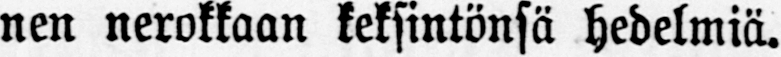nen nerokkaan keksintönsä hedelmiä.
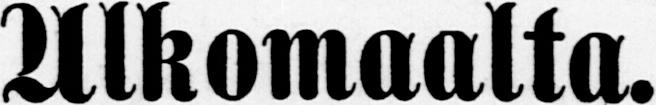Ulkomaalta.
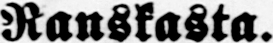Ranskasta.
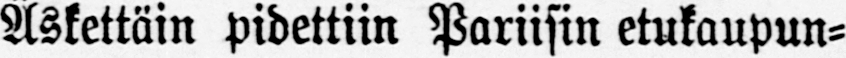Äskettäin pidettiin Pariisin etukaupun-
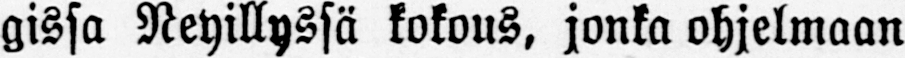gissa Neyillyssä kokous, jonka ohjelmaan
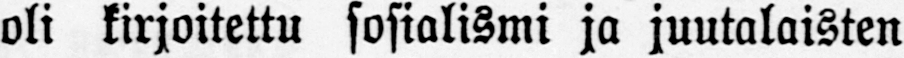oli kirjoitettu sosialismi ja juutalaisten
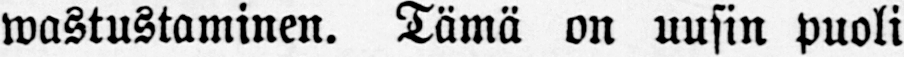wastustaminen. Tämä on uusin puoli
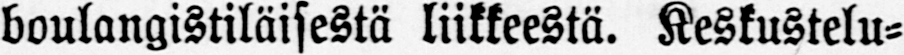boulangistiläisestä liikkeestä. Keskustelu-
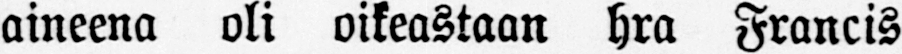aineena oli oikeastaan hra Francis
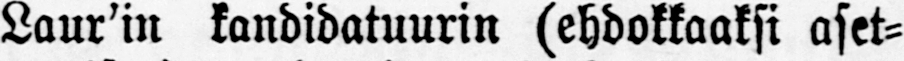Laur'in kandidatuurin (ehdokkaaksi aset-
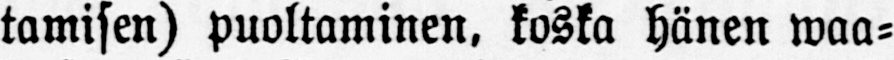tamisen) puoltaminen, koska hänen waa-
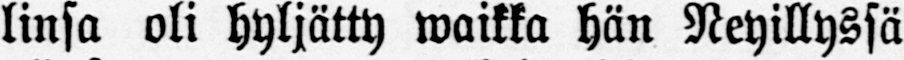linsa oli hyljätty waikka hän Neyillyssä
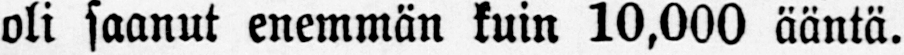oli saanut enemmän kuin 10,000 ääntä.
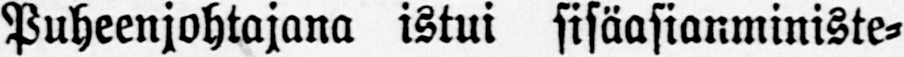Puheenjohtajana istui sisäasianministe-
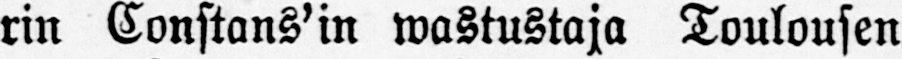rin Constans'in wastustaja Toulousen
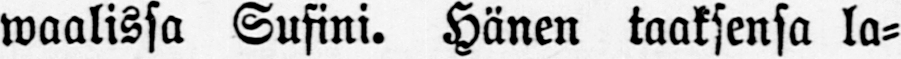waalissa Sufini. Hänen taaksensa la-
